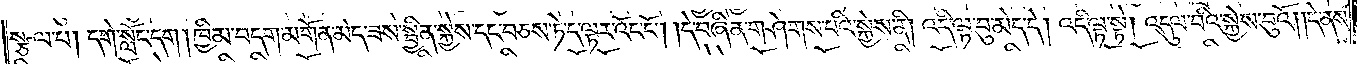སྩལ་པ། དགེ་སློང་དག །ཁྱིམ་བདག་མགོན་མེད་ཟས་སྦྱིན་སྐྱེས་དང་བཅས་ཏེ་ད་ལྟར་འོང་ངོ༌། །དེ་བཞིན་གཤེགས་པའི་སྐྱེས་ནི། འདི་ལྟ་བུ་མེད་དེ། འདི་ལྟ་སྟེ། འདུལ་བའི་སྐྱེས་བུའོ། །དེ་ནས་
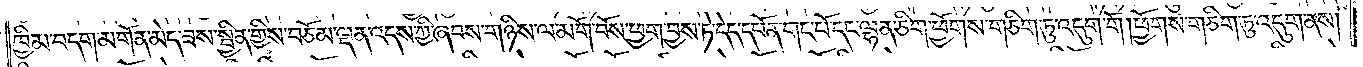ཁྱིམ་བདག་མགོན་མེད་ཟས་སྦྱིན་གྱིས་བཅོམ་ལྡན་འདས་ཀྱི་ཞབས་གཉིས་ལ་མགོ་བོས་ཕྱག་བྱས་ཏེ་དེད་དཔོན་གང་པོ་དང་ལྷན་ཅིག་ཕྱོགས་གཅིག་ཏུ་འདུག་གོ །ཕྱོགས་གཅིག་ཏུ་འདུག་ནས།
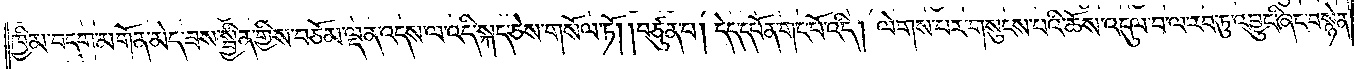ཁྱིམ་བདག་མགོན་མེད་ཟས་སྦྱིན་གྱིས་བཅོམ་ལྡན་འདས་ལ་འདི་སྐད་ཅེས་གསོལ་ཏོ། །བཙུན་པ། དེད་དཔོན་གང་པོ་འདི། ལེགས་པར་གསུངས་པའི་ཆོས་འདུལ་བ་ལ་རབ་ཏུ་འབྱུང་ཞིང་བསྙེན་
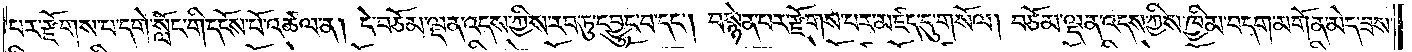པར་རྫོགས་པ་དགེ་སློང་གི་དངོས་པོ་འཚལ་ན། དེ་བཅོམ་ལྡན་འདས་ཀྱིས་རབ་ཏུ་དབྱུང་བ་དང༌། བསྙེན་པར་རྫོགས་པར་མཛད་དུ་གསོལ། བཅོམ་ལྡན་འདས་ཀྱིས་ཁྱིམ་བདག་མགོན་མེད་ཟས་
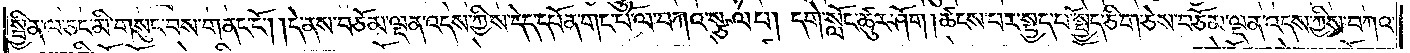སྦྱིན་ལ་ཅང་མི་གསུང་བས་གནང་ངོ༌། །དེ་ནས་བཅོམ་ལྡན་འདས་ཀྱིས་དེད་དཔོན་གང་པོ་ལ་བཀའ་སྩལ་པ། དགེ་སློང་ཚུར་ཤོག །ཚངས་པར་སྤྱད་པ་སྤྱོད་ཅིག་ཅེས་བཅོམ་ལྡན་འདས་ཀྱིས་བཀའ་
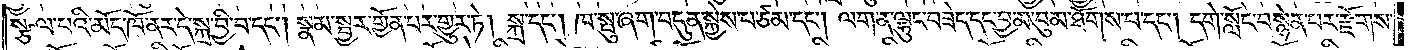སྩལ་བའི་མོད་ཁོ་ནར་དེ་སྐྲ་བྱི་བ་དང༌། སྣམ་སྦྱར་གྱོན་པར་གྱུར་ཏེ། སྐྲ་དང༌། ཁ་སྤུ་ཞག་བདུན་སྐྱེས་པ་ཙམ་དང༌། ལག་ན་ལྷུང་བཟེད་དང་བྱ་མ་བུམ་ཐོགས་པ་དང༌། དགེ་སློང་བསྙེན་པར་རྫོགས་
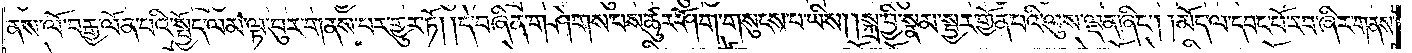ནས་ལོ་བརྒྱ་ལོན་པའི་སྤྱོད་ལམ་ལྟ་བུར་གནས་པར་གྱུར་ཏོ། །དེ་བཞིན་གཤེགས་པས་ཚུར་ཤོག་གསུངས་པ་ཡིས། །སྐྲ་བྱི་སྣམ་སྦྱར་གྱོན་པའི་ལུས་ལྡན་ཞིང༌། །མོད་ལ་དབང་པོ་རབ་ཞིར་གནས་
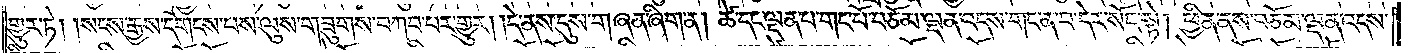གྱུར་ཏེ། །སངས་རྒྱས་དགོངས་པས་ལུས་གཟུགས་བཀབ་པར་གྱུར། །དེ་ནས་དུས་གཞན་ཞིག་ན། ཚེ་དང་ལྡན་པ་གང་བོ་བཅོམ་ལྡན་འདས་གང་ན་བ་དེར་སོང་སྟེ། ཕྱིན་ནས་བཅོམ་ལྡན་འདས་
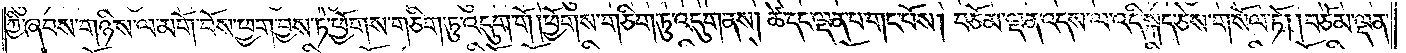ཀྱི་ཞབས་གཉིས་ལ་མགོ་བོས་ཕྱག་བྱས་ཏེ་ཕྱོགས་གཅིག་ཏུ་འདུག་གོ །ཕྱོགས་གཅིག་ཏུ་འདུག་ནས། ཚེ་དང་ལྡན་པ་གང་པོས། བཅོམ་ལྡན་འདས་ལ་འདི་སྐད་ཅེས་གསོལ་ཏོ། །བཅོམ་ལྡན་
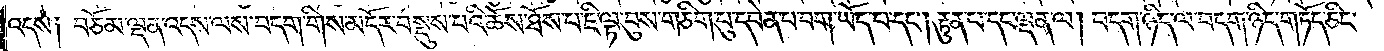འདས། བཅོམ་ལྡན་འདས་ལས་བདག་གིས་མདོར་བསྡུས་པའི་ཆོས་ཐོས་པ་ཇི་ལྟ་བུས་གཅིག་པུ་དབེན་པ་བག་ཡོད་པ་དང༌། རྟུན་པ་དང་ལྡན་ལ། བདག་ཉིད་ལ་བདག་ཉིད་གཏོད་ཅིང་
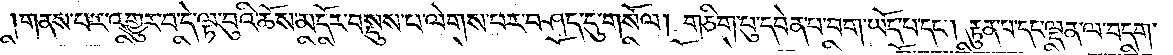།གནས་པར་འགྱུར་བ་དེ་ལྟ་བུའི་ཆོས་མདོར་བསྡུས་པ་ལེགས་པར་བཤད་དུ་གསོལ། གཅིག་པུ་དབེན་པ་བག་ཡོད་པ་དང༌། རྟུན་པ་དང་ལྡན་ལ་བདག་
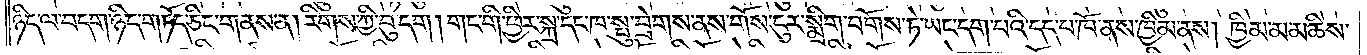ཉིད་ལ་བདག་ཉིད་གཏོད་ཅིང་གནས་ན། རིགས་ཀྱི་བུ་དག །གང་གི་ཕྱིར་སྐྲ་དང་ཁ་སྤུ་བྲེགས་ནས་གོས་ངུར་སྨྲིག་བགོས་ཏེ་ཡང་དག་པའི་དད་པ་ཁོ་ནས་ཁྱིམ་ནས། ཁྱིམ་མ་མཆིས་
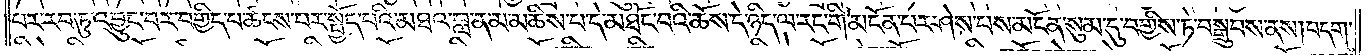པར་རབ་ཏུ་འབྱུང་བར་བགྱིད་པ་ཚངས་པར་སྤྱོད་པའི་མཐའ་བླ་ན་མ་མཆིས་པ་དེ་མཐོང་བའི་ཆོས་དེ་ཉིད་ལ་རང་གི་མངོན་པར་ཤེས་པས་མངོན་སུམ་དུ་བགྱིས་ཏེ་བསྒྲུབས་ནས། བདག་
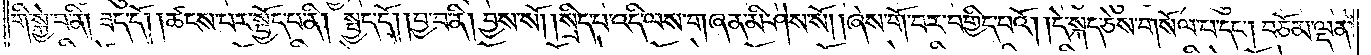གི་སྐྱེ་བ་ནི། ཟད་དོ། །ཚངས་པར་སྤྱོད་པ་ནི། སྤྱད་དོ། །བྱ་བ་ནི། བྱས་སོ། །སྲིད་པ་འདི་ལས་གཞན་མི་ཤེས་སོ། །ཞེས་གོ་བར་བགྱིད་པའོ། །དེ་སྐད་ཅེས་གསོལ་པ་དང༌། བཅོམ་ལྡན་
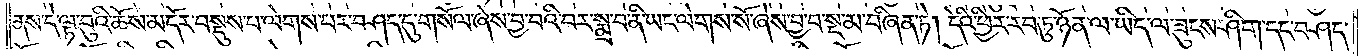ནས་དེ་ལྟ་བུའི་ཆོས་མདོར་བསྡུས་པ་ལེགས་པར་བཤད་དུ་གསོལ་ཞེས་བྱ་བའི་བར་སྨྲ་བ་ནི་ཡང་ལེགས་སོ་ཞེས་བྱ་བ་སྔ་མ་བཞིན་ཏེ། དེའི་ཕྱིར་རབ་ཏུ་ཉོན་ལ་ཡིད་ལ་ཟུངས་ཤིག་དང་བཤད་
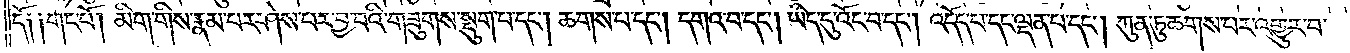དོ༑ ༑གང་པོ། མིག་གིས་རྣམ་པར་ཤེས་པར་བྱ་བའི་གཟུགས་སྡུག་པ་དང༌། ཆགས་པ་དང༌། དགའ་བ་དང༌། ཡིད་དུ་འོང་བ་དང༌། འདོད་པ་དང་ལྡན་པ་དང༌། ཀུན་ཏུ་ཆགས་པར་འགྱུར་བ་
